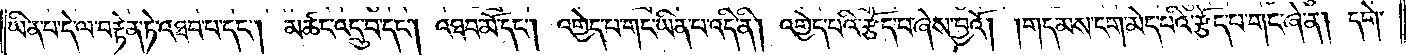ཡིན་པ་དེ་ལ་བརྟེན་ཏེ་འཐབ་པ་དང༌། མཚང་འདྲུ་བ་དང༌། འཐབ་མོ་དང༌། འགྱེད་པ་གང་ཡིན་པ་འདི་ནི། འགྱེད་པའི་རྩོད་བ་ཞེས་བྱའོ། །གདམས་ངག་མེད་པའི་རྩོད་པ་གང་ཞེ་ན། དགེ་
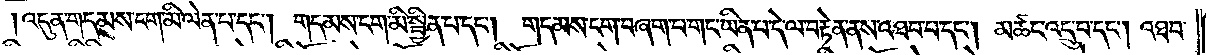།འདུན་གདམས་ངག་མི་ལེན་པ་དང༌། གདམས་ངག་མི་སྦྱིན་པ་དང༌། གདམས་ངག་བཞག་པ་གང་ཡིན་པ་དེ་ལ་བརྟེན་ནས་འཐབ་པ་དང༌། མཚང་འདྲུ་བ་དང༌། འཐབ་
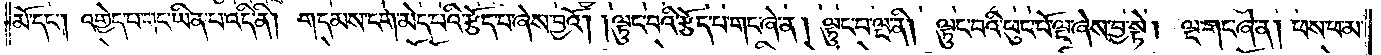མོ་དང༌། འགྱེད་པ་གང་ཡིན་པ་འདི་ནི། གདམས་ངག་མེད་པའི་རྩོད་པ་ཞེས་བྱའོ། །ལྟུང་བའི་རྩོད་པ་གང་ཞེ་ན། ལྟུང་བ་ལྔ་ནི། ལྟུང་བའི་ཕུང་པོ་ལྔ་ཞེས་བྱ་སྟེ། ལྔ་གང་ཞེ་ན། ཕས་ཕ་མ་
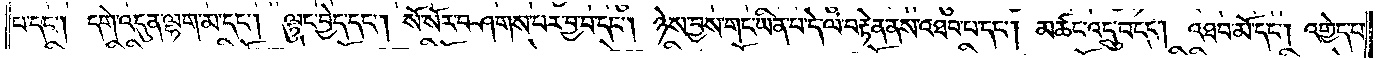པ་དང༌། དགེ་འདུན་ལྷག་མ་དང༌། ལྟུང་བྱེད་དང༌། སོ་སོར་བཤགས་པར་བྱ་བ་དང༌། ཉེས་བྱས་གང་ཡིན་པ་དེ་ལ་བརྟེན་ནས་འཐབ་པ་དང༌། མཚང་འདྲུ་བ་དང༌། འཐབ་མོ་དང༌། འགྱེད་པ་
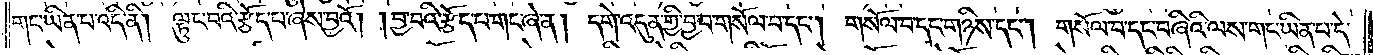གང་ཡིན་པ་འདི་ནི། ལྟུང་བའི་རྩོད་པ་ཞེས་བྱའོ། །བྱ་བའི་རྩོད་པ་གང་ཞེ་ན། དགེ་འདུན་གྱི་བྱ་བ་གསོལ་བ་དང༌། གསོལ་བ་དང་གཉིས་དང༌། གསོལ་བ་དང་བཞིའི་ལས་གང་ཡིན་པ་དེ་
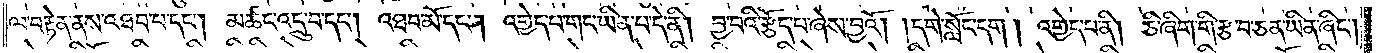ལ་བརྟེན་ནས་འཐབ་པ་དང༌། མཚང་འདྲུ་བ་དང༌། འཐབ་མོ་དང༌། འགྱེད་པ་གང་ཡིན་པ་དེ་ནི། བྱ་བའི་རྩོད་པ་ཞེས་བྱའོ། །དགེ་སློང་དག །འགྱེད་པ་ནི། ཅི་ཞིག་གི་རྩ་བ་ཅན་ཡིན་ཞིང༌།
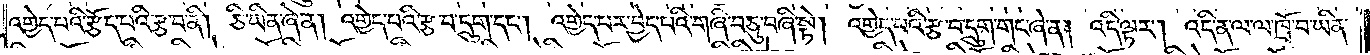འགྱེད་པའི་རྩོད་པའི་རྩ་བ་ནི། ཅི་ཡིན་ཞེ་ན། འགྱེད་པའི་རྩ་བ་དྲུག་དང༌། འགྱེད་པར་བྱེད་པའི་གཞི་བཅུ་བཞི་སྟེ། འགྱེད་པའི་རྩ་བ་དྲུག་གང་ཞེ་ན། འདི་ལྟར། འདི་ན་ལ་ལ་ཁྲོ་བ་ཡིན་
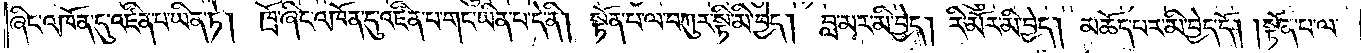ཞིང་འཁོན་དུ་འཛིན་པ་ཡིན་ཏེ། ཁྲོ་ཞིང་འཁོན་དུ་འཛིན་པ་གང་ཡིན་པ་དེ་ནི། སྟོན་པ་ལ་བཀུར་སྟི་མི་བྱེད། བླ་མར་མི་བྱེད། རི་མོར་མི་བྱེད། མཆོད་པར་མི་བྱེད་དོ། །སྟོན་པ་ལ་
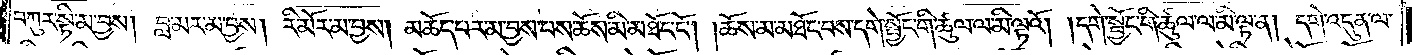བཀུར་སྟི་མ་བྱས། བླ་མར་མ་བྱས། རི་མོར་མ་བྱས། མཆོད་པར་མ་བྱས་པས་ཆོས་མི་མཐོང་ངོ༌། །ཆོས་མ་མཐོང་བས་དགེ་སྦྱོང་གི་ཚུལ་ལ་མི་ལྟའོ། །དགེ་སྦྱོང་གི་ཚུལ་ལ་མི་ལྟ་ན། དགེ་འདུན་ལ་
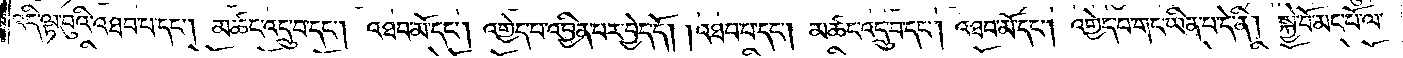འདི་ལྟ་བུའི་འཐབ་པ་དང༌། མཚང་འདྲུ་བ་དང༌། འཐབ་མོ་དང༌། འགྱེད་པ་འབྱིན་པར་བྱེད་དོ། །འཐབ་པ་དང༌། མཚང་འདྲུ་བ་དང༌། འཐབ་མོ་དང༌། འགྱེད་པ་གང་ཡིན་པ་དེ་ནི། སྐྱེ་བོ་མང་པོ་ལ་
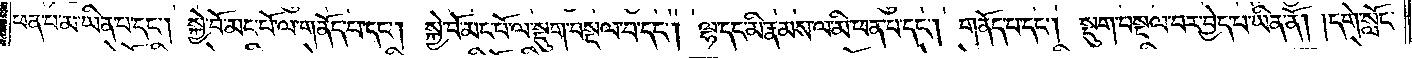ཕན་པ་མ་ཡིན་པ་དང༌། སྐྱེ་བོ་མང་པོ་ལ་གནོད་པ་དང༌། སྐྱེ་བོ་མང་པོ་ལ་སྡུག་བསྔལ་བ་དང༌། ལྷ་དང་མི་རྣམས་ལ་མི་ཕན་པ་དང༌། གནོད་པ་དང༌། སྡུག་བསྔལ་བར་བྱེད་པ་ཡིན་ནོ། །དགེ་སློང་
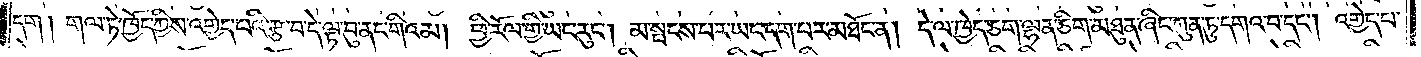དག །གལ་ཏེ་ཁྱོད་ཀྱིས་འགྱེད་པའི་རྩ་བ་དེ་ལྟ་བུ་ནང་གིའམ། ཕྱི་རོལ་གྱི་ཡང་རུང༌། མ་སྤངས་པར་ཡང་དག་པར་མཐོང་ན། དེ་ལ་ཁྱེད་ཅག་ལྷན་ཅིག་མཐུན་ཞིང་ཀུན་ཏུ་དགའ་བ་དང༌། འགྱེད་པ་
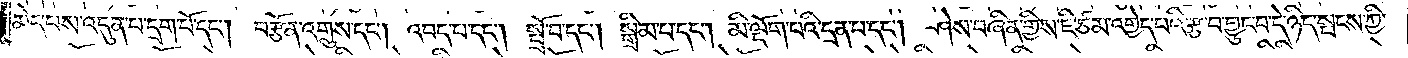མེད་པས་འདུན་པ་དྲག་པོ་དང༌། བརྩོན་འགྲུས་དང༌། འབད་པ་དང༌། སྤྲོ་བ་དང༌། སྒྲིམ་པ་དང༌། མི་ལྡོག་པའི་དྲན་པ་དང༌། ཤེས་བཞིན་གྱིས་ཇི་ཙམ་འགྱེད་པའི་རྩ་བ་བྱུང་བ་དེ་ཉིད་སྤངས་ཀྱི་
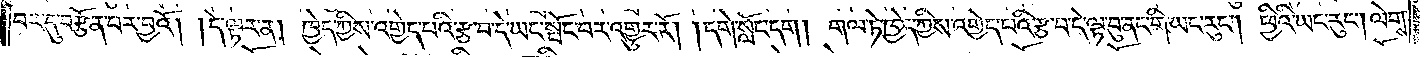བར་དུ་བརྩོན་པར་བྱའོ། །དེ་ལྟར་ན། ཁྱེད་ཀྱིས་འགྱེད་པའི་རྩ་བ་དེ་ཡང་སྤོང་བར་འགྱུར་རོ། །དགེ་སློང་དག །གལ་ཏེ་ཁྱེད་ཀྱིས་འགྱེད་པའི་རྩ་བ་དེ་ལྟ་བུ་ནང་གི་ཡང་རུང༌། ཕྱིའི་ཡང་རུང༌། ལེགས་
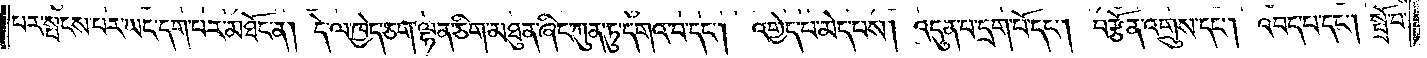པར་སྤངས་པར་ཡང་དག་པར་མཐོང་ན། དེ་ལ་ཁྱེད་ཅག་ལྷན་ཅིག་མཐུན་ཞིང་ཀུན་ཏུ་དགའ་བ་དང༌། འགྱེད་པ་མེད་པས། འདུན་པ་དྲག་པོ་དང༌། བརྩོན་འགྲུས་དང༌། འབད་པ་དང༌། སྤྲོ་བ་
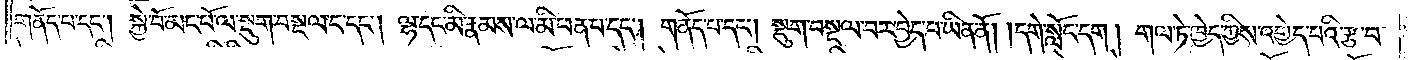གནོད་པ་དང༌། སྐྱེ་བོ་མང་པོ་ལ་སྡུག་བསྔལ་བ་དང༌། ལྷ་དང་མི་རྣམས་ལ་མི་ཕན་པ་དང༌། གནོད་པ་དང༌། སྡུག་བསྔལ་བར་བྱེད་པ་ཡིན་ནོ། །དགེ་སློང་དག །གལ་ཏེ་ཁྱེད་ཀྱིས་འགྱེད་པའི་རྩ་བ་
